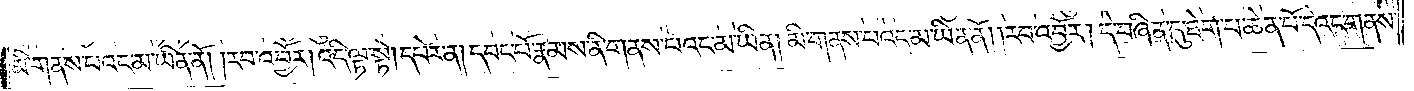མི་གནས་པའང་མ་ཡིན་ནོ། །རབ་འབྱོར། འདི་ལྟ་སྟེ། དཔེར་ན། དབང་པོ་རྣམས་ནི་གནས་པའང་མ་ཡིན། མི་གནས་པའང་མ་ཡིན་ནོ། །རབ་འབྱོར། དེ་བཞིན་དུ་ཐེག་པ་ཆེན་པོ་དེའང་གནས་
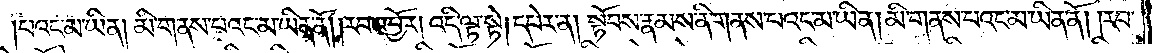པའང་མ་ཡིན། མི་གནས་པའང་མ་ཡིན་ནོ། །རབ་འབྱོར། འདི་ལྟ་སྟེ། དཔེར་ན། སྟོབས་རྣམས་ནི་གནས་པའང་མ་ཡིན། མི་གནས་པའང་མ་ཡིན་ནོ། རབ་
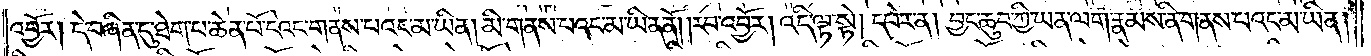འབྱོར། དེ་བཞིན་དུ་ཐེག་པ་ཆེན་པོ་དེའང་གནས་པའང་མ་ཡིན། མི་གནས་པའང་མ་ཡིན་ནོ། །རབ་འབྱོར། འདི་ལྟ་སྟེ། དཔེར་ན། བྱང་ཆུབ་ཀྱི་ཡན་ལག་རྣམས་ནི་གནས་པའང་མ་ཡིན།
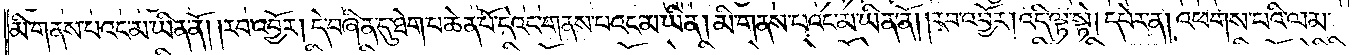མི་གནས་པའང་མ་ཡིན་ནོ། །རབ་འབྱོར། དེ་བཞིན་དུ་ཐེག་པ་ཆེན་པོ་དེའང་གནས་པའང་མ་ཡིན། མི་གནས་པའང་མ་ཡིན་ནོ། །རབ་འབྱོར། འདི་ལྟ་སྟེ། དཔེར་ན། འཕགས་པའི་ལམ་
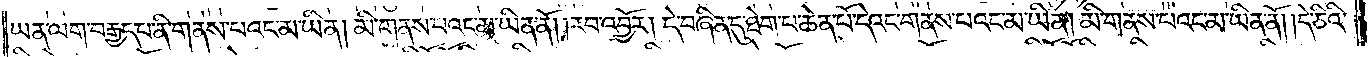ཡན་ལག་བརྒྱད་པ་ནི་གནས་པའང་མ་ཡིན། མི་གནས་པའང་མ་ཡིན་ནོ། །རབ་འབྱོར། དེ་བཞིན་དུ་ཐེག་པ་ཆེན་པོ་དེའང་གནས་པའང་མ་ཡིན། མི་གནས་པའང་མ་ཡིན་ནོ། དེ་ཅིའི་
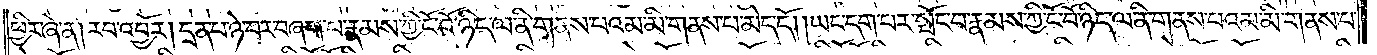ཕྱིར་ཞེ་ན། རབ་འབྱོར། དྲན་པ་ཉེ་བར་བཞག་པ་རྣམས་ཀྱི་ངོ་བོ་ཉིད་ལ་ནི་གནས་པའམ་མི་གནས་པ་མེད་དོ། །ཡང་དག་པར་སྤོང་བ་རྣམས་ཀྱི་ངོ་བོ་ཉིད་ལ་ནི་གནས་པའམ་མི་གནས་པ་
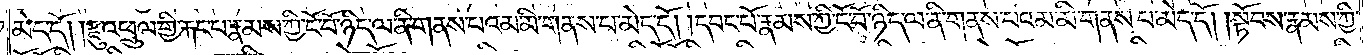མེད་དོ། །རྫུ་འཕྲུལ་གྱི་རྐང་པ་རྣམས་ཀྱི་ངོ་བོ་ཉིད་ལ་ནི་གནས་པའམ་མི་གནས་པ་མེད་དོ། །དབང་པོ་རྣམས་ཀྱི་ངོ་བོ་ཉིད་ལ་ནི་གནས་པའམ་མི་གནས་པ་མེད་དོ། །སྟོབས་རྣམས་ཀྱི་
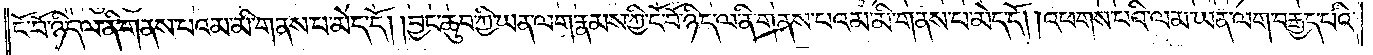ངོ་བོ་ཉིད་ལ་ནི་གནས་པའམ་མི་གནས་པ་མེད་དོ། །བྱང་ཆུབ་ཀྱི་ཡན་ལག་རྣམས་ཀྱི་ངོ་བོ་ཉིད་ལ་ནི་གནས་པའམ་མི་གནས་པ་མེད་དོ། །འཕགས་པའི་ལམ་ཡན་ལག་བརྒྱད་པའི་
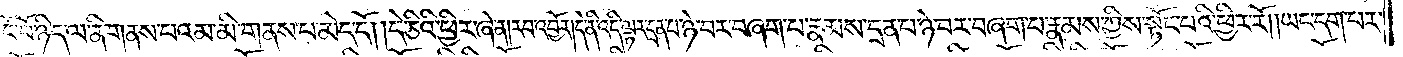ངོ་བོ་ཉིད་ལ་ནི་གནས་པ་འམ་མི་གནས་པ་མེད་དོ། །དེ་ཅིའི་ཕྱིར་ཞེ་ན། རབ་འབྱོར། དེ་ནི་འདི་ལྟར་དྲན་པ་ཉེ་བར་བཞག་པ་རྣམས་དྲན་པ་ཉེ་བར་བཞག་པ་རྣམས་ཀྱིས་སྟོང་པའི་ཕྱིར་རོ། །ཡང་དག་པར་
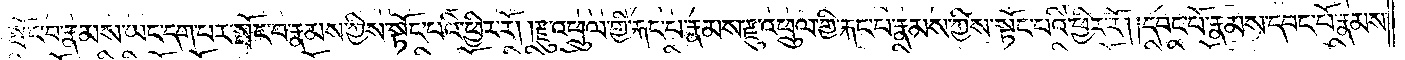སྤོང་བ་རྣམས་ཡང་དག་པར་སྤོང་བ་རྣམས་ཀྱིས་སྟོང་པའི་ཕྱིར་རོ། །རྫུ་འཕྲུལ་གྱི་རྐང་པ་རྣམས་རྫུ་འཕྲུལ་གྱི་རྐང་པ་རྣམས་ཀྱིས་སྟོང་པའི་ཕྱིར་རོ། །དབང་པོ་རྣམས་དབང་པོ་རྣམས་
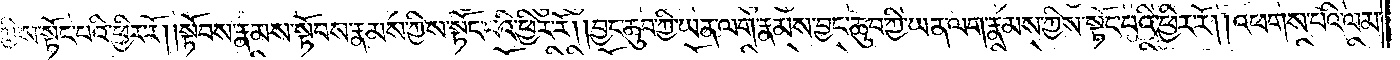ཀྱིས་སྟོང་པའི་ཕྱིར་རེ། །སྟོབས་རྣམས་སྟོབས་རྣམས་ཀྱིས་སྟོང་པའི་ཕྱིར་རོ། །བྱང་ཆུབ་ཀྱི་ཡན་ལག་རྣམས་བྱང་ཆུབ་ཀྱི་ཡན་ལག་རྣམས་ཀྱིས་སྟོང་པའི་ཕྱིར་རོ། །འཕགས་པའི་ལམ་
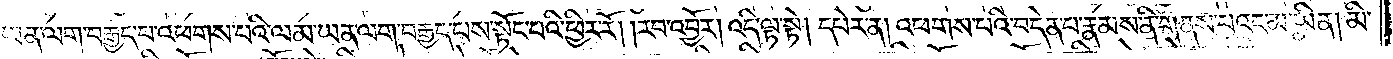ཡན་ལག་བརྒྱད་པ་འཕགས་པའི་ལམ་ཡན་ལག་བརྒྱད་པས་སྟོང་པའི་ཕྱིར་རོ། །རབ་འབྱོར། འདི་ལྟ་སྟེ། དཔེར་ན། འཕགས་པའི་བདེན་པ་རྣམས་ནི་གནས་པའང་མ་ཡིན། མི་
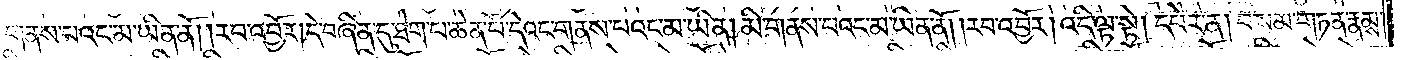གནས་པའང་མ་ཡིན་ནོ། །རབ་འབྱོར། དེ་བཞིན་དུ་ཐེག་པ་ཆེན་པོ་དེའང་གནས་པའང་མ་ཡིན། མི་གནས་པའང་མ་ཡིན་ནོ། །རབ་འབྱོར། འདི་ལྟ་སྟེ། དཔེར་ན། བསམ་གཏན་རྣམས་
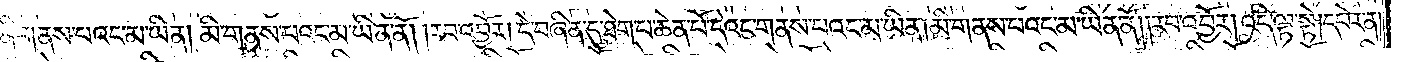ནི་གནས་པའང་མ་ཡིན། མི་གནས་པའང་མ་ཡིན་ནོ། །རབ་འབྱོར། དེ་བཞིན་དུ་ཐེག་པ་ཆེན་པོ་དེའང་གནས་པའང་མ་ཡིན། མི་གནས་པའང་མ་ཡིན་ནོ། །རབ་འབྱོར། འདི་ལྟ་སྟེ། དཔེར་ན།
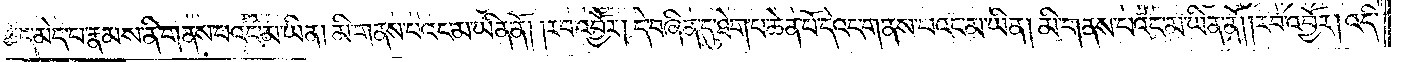ཚད་མེད་པ་རྣམས་ནི་གནས་པའང་མ་ཡིན། མི་གནས་པའང་མ་ཡིན་ནོ། །རབ་འབྱོར། དེ་བཞིན་དུ་ཐེག་པ་ཆེན་པོ་དེའང་གནས་པའང་མ་ཡིན་མི་གནས་པའང་མ་ཡིན་ནོ། །རབ་འབྱོར། འདི་
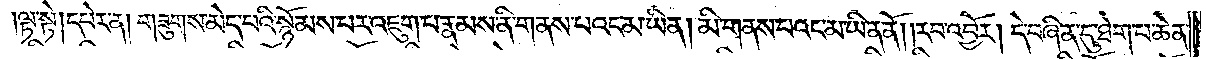ལྟ་སྟེ། དཔེར་ན། གཟུགས་མེད་པའི་སྙོམས་པར་འཇུག་པ་རྣམས་ནི་གནས་པའང་མ་ཡིན། མི་གནས་པའང་མ་ཡིན་ནོ། །རབ་འབྱོར། དེ་བཞིན་དུ་ཐེག་པ་ཆེན་
